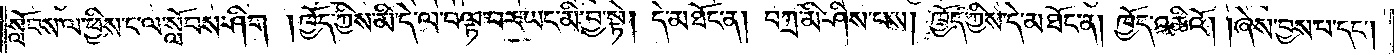སློབས་ལ་ཕྱིས་ང་ལ་སློབས་ཤིག །ཁྱོད་ཀྱིས་མི་དེ་ལ་བལྟ་བར་ཡང་མི་བྱ་སྟེ། དེ་མཐོང་ན། བཀྲ་མི་ཤིས་པས། ཁྱོད་ཀྱིས་དེ་མཐོང་ན། ཁྱོད་འཆིའོ། །ཞེས་བྱས་པ་དང༌།
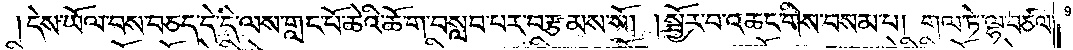དེས་ཡོལ་བས་བཅད་དེ་དེ་ལས་གླང་པོ་ཆེའི་ཆོ་ག་བསླབ་པར་བརྩམས་སོ། །སྦྱོར་བ་འཆང་གིས་བསམ་པ། གལ་ཏེ་ལྷ་བཙལ་
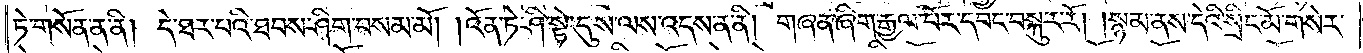ཏེ་གསོན་ན་ནི། དེ་ཐར་པའི་ཐབས་ཤིག་བསམ་མོ། །འོན་ཏེ་ཤི་སྟེ་དུས་ལས་འདས་ན་ནི། གཞན་ཞིག་རྒྱལ་པོར་དབང་བསྐུར་རོ། །སྙམ་ནས་དེའི་སྲིང་མོ་གསེར་
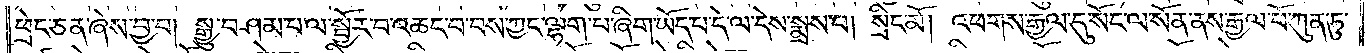ཕྲེང་ཅན་ཞེས་བྱ་བ། སྒྱུ་བཤམ་པ་ལ་སྦྱོར་བ་འཆང་བ་བས་ཀྱང་ལྷག་པ་ཞིག་ཡོད་པ་དེ་ལ་དེས་སྨྲས་པ། སྲིང་མོ། འཕགས་རྒྱལ་དུ་སོང་ལ་སོན་ནས་རྒྱལ་པོ་ཀུན་ཏུ་
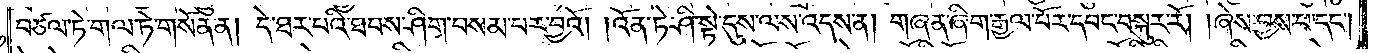བཙལ་ཏེ་གལ་ཏེ་གསོན་ན། དེ་ཐར་པའི་ཐབས་ཤིག་བསམ་པར་བྱའོ། །འོན་ཏེ་ཤི་སྟེ་དུས་ལས་འདས་ན། གཞན་ཞིག་རྒྱལ་པོར་དབང་བསྐུར་རོ། །ཞེས་བྱས་པ་དང༌།
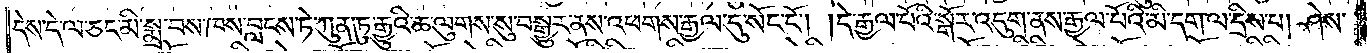དེས་དེ་ལ་ཅང་མི་སྨྲ་བས་ཁས་བླངས་ཏེ་ཀུན་ཏུ་རྒྱུའི་ཆ་ལུགས་སུ་བསྒྱུར་ནས་འཕགས་རྒྱལ་དུ་སོང་ངོ༌། །དེ་རྒྱལ་པོའི་སྒོར་འདུག་ནས་རྒྱལ་པོའི་མི་དག་ལ་དྲིས་པ། ཤེས་
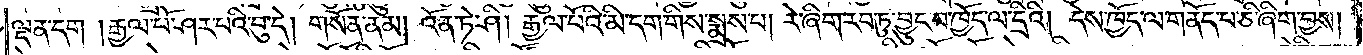ལྡན་དག །རྒྱལ་པོ་ཤར་བའི་བུ་དེ། གསོན་ནམ། འོན་ཏེ་ཤི། རྒྱལ་པོའི་མི་དག་གིས་སྨྲས་པ། རེ་ཞིག་རབ་ཏུ་བྱུང་བ་ཁྱོད་ལ་དྲིའི། དེས་ཁྱོད་ལ་གནོད་པ་ཅི་ཞིག་བྱས།
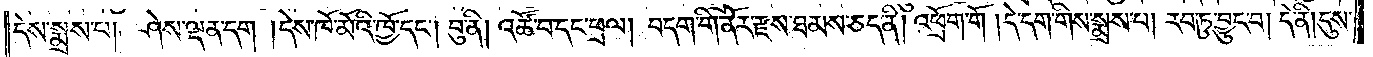དེས་སྨྲས་པ། ཤེས་ལྡན་དག །དེས་ཁོ་མོའི་ཁྱོ་དང༌། བུ་ནི། འཚོ་བ་དང་ཕྲལ། བདག་གི་ནོར་རྫས་ཐམས་ཅད་ནི། འཕྲོག་གོ །དེ་དག་གིས་སྨྲས་པ། རབ་ཏུ་བྱུང་བ། དེ་ནི། དུས་
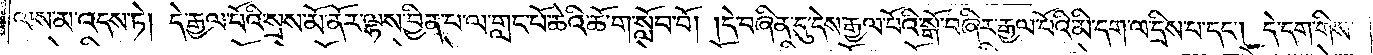ལས་མ་འདས་ཏེ། དེ་རྒྱལ་པོའི་སྲས་མོ་ནོར་ལྷས་བྱིན་པ་ལ་གླང་པོ་ཆེའི་ཆོ་ག་སློབ་བོ། །དེ་བཞིན་དུ་དེས་རྒྱལ་པོའི་སྒོ་བཞིར་རྒྱལ་པོའི་མི་དག་ལ་དྲིས་པ་དང༌། དེ་དག་གིས་
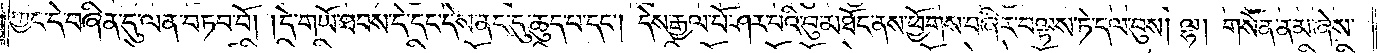ཀྱང་དེ་བཞིན་དུ་ལན་བཏབ་བོ། །དེ་གཡོ་ཐབས་དེ་དང་དེས་ནང་དུ་ཆུད་པ་དང༌། དེས་རྒྱལ་པོ་ཤར་བའི་བུ་མཐོང་ནས་ཕྱོགས་བཞིར་བལྟས་ཏེ་དལ་བུས། ལྷ། གསོན་ནམ་ཞེས་
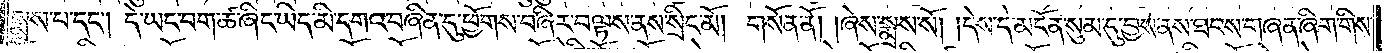སྨྲས་པ་དང༌། དེ་ཡང་བག་ཚ་ཞིང་ཡིད་མི་དགའ་བཞིན་དུ་ཕྱོགས་བཞིར་བལྟས་ནས་སྲིང་མོ། གསོན་ནོ། །ཞེས་སྨྲས་སོ། །དེས་དེ་མངོན་སུམ་དུ་བྱས་ནས་ཐབས་གཞན་ཞིག་གིས་
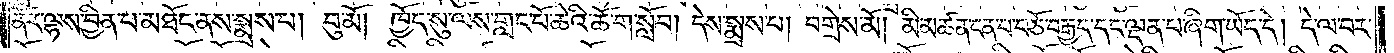ནོར་ལྷས་བྱིན་པ་མཐོང་ནས་སྨྲས་པ། བུ་མོ། ཁྱོད་སུ་ལས་གླང་པོ་ཆེའི་ཆོ་ག་སློབ། དེས་སྨྲས་པ། བགྲེས་མོ། མི་མཚན་ངན་པ་བཅོ་བརྒྱད་དང་ལྡན་པ་ཞིག་ཡོད་དེ། དེ་ལ་བར་
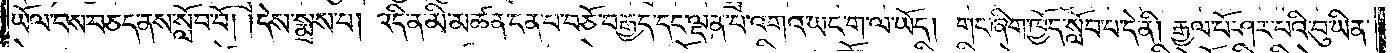ཡོལ་བས་བཅད་ནས་སློབ་བོ། །དེས་སྨྲས་པ། འདི་ན་མི་མཚན་ངན་པ་བཅོ་བརྒྱད་དང་ལྡན་པ་འགའ་ཡང་ག་ལ་ཡོད། གང་ཞིག་ཁྱོད་སློབ་པ་དེ་ནི། རྒྱལ་པོ་ཤར་བའི་བུ་ཡིན་
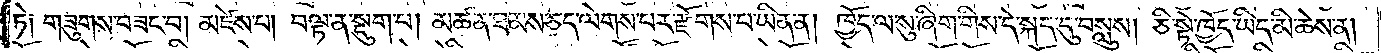ཏེ། གཟུགས་བཟང་བ། མཛེས་པ། བལྟ་ན་སྡུག་པ། མཚན་ཐམས་ཅད་ལེགས་པར་རྫོགས་པ་ཡིན་ན། ཁྱོད་ལ་སུ་ཞིག་གིས་དེ་སྐད་དུ་བསླུས། ཅི་སྟེ་ཁྱོད་ཡིད་མི་ཆེས་ན།
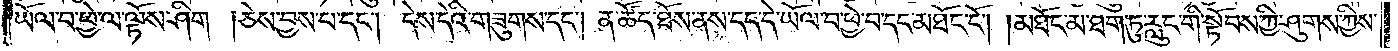ཡོལ་བ་ཕྱེ་ལ་ལྟོས་ཤིག །ཅེས་བྱས་པ་དང༌། དེས་དེའི་གཟུགས་དང༌། ན་ཚོད་ཐོས་ནས་དད་དེ་ཡོལ་བ་ཕྱེ་བ་དང་མཐོང་ངོ༌། །མཐོང་མ་ཐག་ཏུ་རླུང་གི་སྟོབས་ཀྱི་ཤུགས་ཀྱིས་
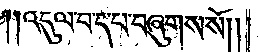༎ འདུལ་བ་ད་པ་བཞུགས་སོ༎
